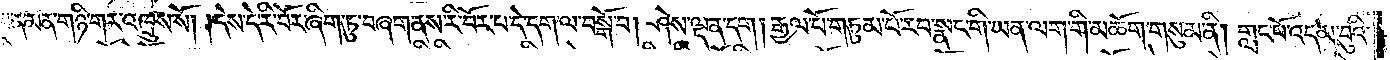ཡན་མན་གཉི་གར་འཁྲུས་སོ། །དེས་དེ་རི་བོར་ཞིག་ཏུ་བཞག་ནས་རི་བོར་པ་དེ་དག་ལ་བསྒོ་བ། ཤེས་ལྡན་དག། རྒྱལ་པོ་གཏུམ་པོར་བྱ་སྣང་གི་ཡན་ལག་གི་མཆོག་གསུམ་ནི། གླང་པོ་འདམ་བུའི་
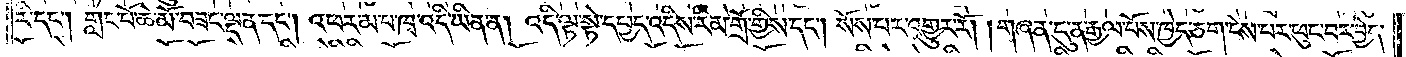རི་དང༌། གླང་པོ་ཆེ་མོ་བཟང་ལྡན་དང༌། འཕར་མ་པ་ཁྭ་འདི་ཡིན་ན། འདི་ལྟ་སྟེ་དཔྱད་འདིས་རིམ་གྲོ་གྱིས་དང༌། སོས་པར་འགྱུར་རོ། །གཞན་དུ་ན་རྒྱལ་པོས་ཁྱེད་ཅག་ངེས་པར་ཕུང་བར་བྱེད་
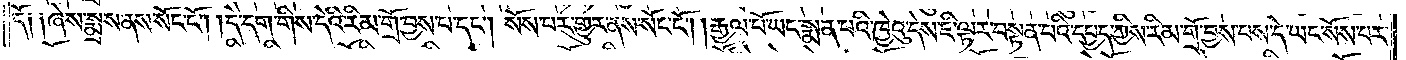དོ༑ ༑ཞེས་སྨྲས་ནས་སོང་ངོ༌། །དེ་དག་གིས་དེའི་རིམ་གྲོ་བྱས་པ་དང༌། སོས་པར་གྱུར་ནས་སོང་ངོ༌། །རྒྱལ་པོ་ཡང་སྨན་པའི་ཁྱེའུ་དེས་ཇི་ལྟར་བསྟན་པའི་དཔྱད་ཀྱིས་རིམ་གྲོ་བྱས་པས་དེ་ཡང་སོས་པར་
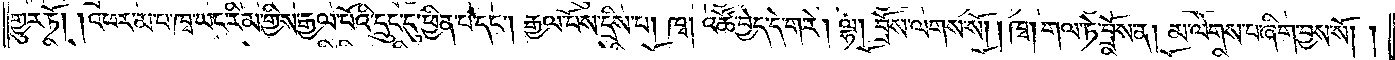གྱུར་ཏོ། །འཕར་མ་པ་ཁྭ་ཡང་རིམ་གྱིས་རྒྱལ་པོའི་དྲུང་དུ་ཕྱིན་པ་དང༌། རྒྱལ་པོས་དྲིས་པ། ཁྭ། འཚོ་བྱེད་དེ་ག་རེ། ལྷ། བྲོས་ལགས་སོ། །ཁྭ། གལ་ཏེ་བྲོས་ན། མ་ལེགས་པ་ཞིག་བྱས་སོ། །
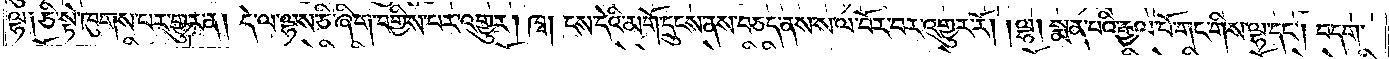ལྷ། ཅི་སྟེ་ཁུགས་པར་གྱུར་ན། དེ་ལ་ལྷས་ཅི་ཞིག་བགྱིས་པར་འགྱུར། ཁྭ། ངས་དེའི་མགོ་དྲུངས་ནས་བཅད་ནས་ས་ལ་བོར་བར་འགྱུར་རོ། །ལྷ། སྨན་པའི་རྒྱལ་པོ་གང་གིས་ལྷ་དང༌། བདག་
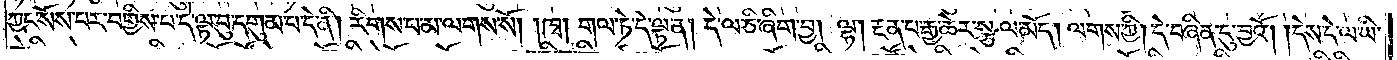ཀྱང་སོས་པར་བགྱིས་པ་དེ་ལྟ་བུ་དགུམ་པ་དེ་ནི། རིགས་པ་མ་ལགས་སོ། །ཁྭ། གལ་ཏེ་དེ་ལྟ་ན། དེ་ལ་ཅི་ཞིག་བྱ། ལྷ། རྔན་པ་རྒྱ་ཆེར་སྩལ་མོད། ལགས་ཀྱི། དེ་བཞིན་དུ་བྱའོ། །དེས་དེ་ལ་ཡི་
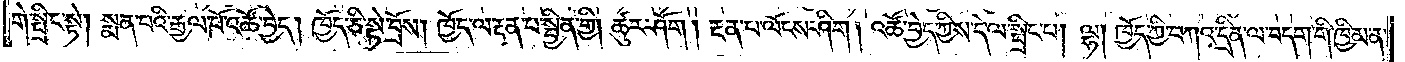གེ་སྤྲིང་སྟེ། སྨན་པའི་རྒྱལ་པོ་འཚོ་བྱེད། ཁྱོད་ཅི་སྟེ་བྲོས། ཁྱོད་ལ་རྔན་པ་སྦྱིན་གྱི། ཚུར་ཤོག། རྔན་པ་ལོངས་ཤིག། འཚོ་བྱེད་ཀྱིས་དེ་ལ་སྤྲིང་པ། ལྷ། ཁྱོད་ཀྱི་བཀའ་དྲིན་ལ་བདག་གི་ཁྱིམ་ན་
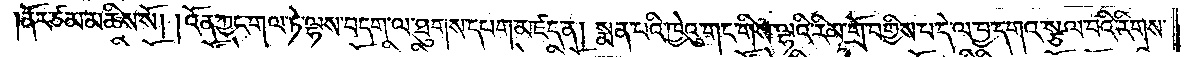ནོར་ཙམ་མཆིས་སོ། །འོན་ཀྱང་གལ་ཏེ་ལྷས་བདག་ལ་ཐུགས་དཔག་མཛད་ན། སྨན་པའི་ཁྱེའུ་གང་གིས་ལྷའི་རིམ་གྲོ་བགྱིས་པ་དེ་ལ་བྱ་དགའ་སྩལ་བའི་རིགས་
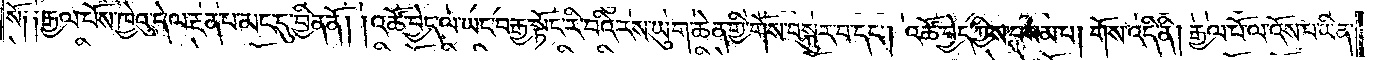སོ༑ ༑རྒྱལ་པོས་ཁྱེའུ་དེ་ལ་རྔན་པ་མང་དུ་བྱིན་ནོ། །འཚོ་བྱེད་ལ་ཡང་བརྒྱ་སྟོང་རི་བའི་རས་ཡུག་ཆེན་གྱི་གོས་བསྐུར་བ་དང༌། འཚོ་བྱེད་ཀྱིས་བསམ་པ། གོས་འདི་ནི། རྒྱལ་པོ་ལ་འོས་པ་ཡིན་
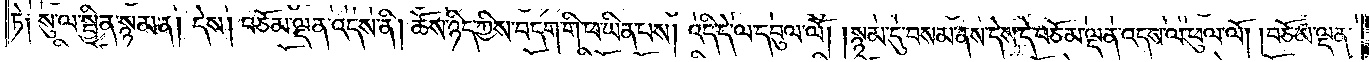ཏེ༑ སུ་ལ་སྦྱིན་སྙམ་ན། དེས། བཅོམ་ལྡན་འདས་ནི། ཆོས་ཉིད་ཀྱིས་བདག་གི་ཕ་ཡིན་པས། འདི་དེ་ལ་དབུལ་ལོ། །སྙམ་དུ་བསམ་ནས་དེས་དེ་བཅོམ་ལྡན་འདས་ལ་ཕུལ་ལོ། །བཅོམ་ལྡན་
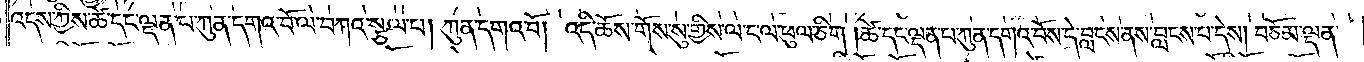འདས་ཀྱིས་ཚེ་དང་ལྡན་པ་ཀུན་དགའ་བོ་ལ་བཀའ་སྩལ་པ། ཀུན་དགའ་བོ། འདི་ཆོས་གོས་སུ་གྱིས་ལ་ང་ལ་ཕུལ་ཅིག །ཚེ་དང་ལྡན་པ་ཀུན་དགའ་བོས་དེ་བླངས་ནས་བླངས་པ་དེས། བཅོམ་ལྡན་
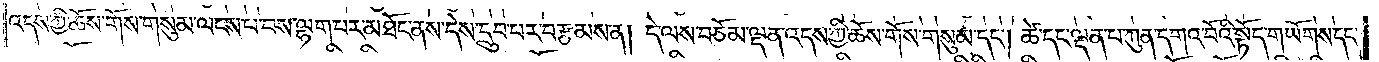འདས་ཀྱི་ཆོས་གོས་གསུམ་ལངས་པ་བས་ལྷག་པར་མཐོང་ནས་དེས་དྲུབ་པར་བརྩམས་ན། དེ་ལས་བཅོམ་ལྡན་འདས་ཀྱི་ཆོས་གོས་གསུམ་དང༌། ཚེ་དང་ལྡན་པ་ཀུན་དགའ་བོའི་སྟོད་གཡོགས་དང་
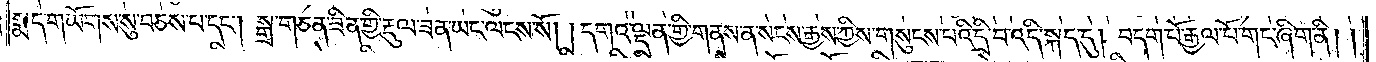སྨད་གཡོགས་སུ་བཅས་པ་དང༌། སྒྲ་གཅན་ཟིན་གྱི་རྡུལ་ཟན་ཡང་ལངས་སོ། །དགའ་ལྡན་གྱི་གནས་ན་སངས་རྒྱས་ཀྱིས་གསུངས་པའི་དྲི་བ་འདི་སྐད་དུ། བདག་པོ་རྒྱལ་པོ་གང་ཞིག་ནི༎
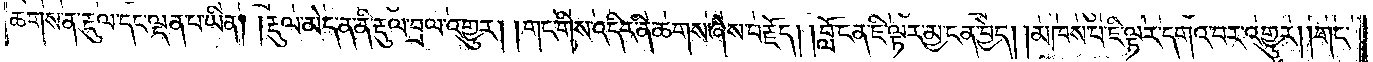ཆགས་ན་རྡུལ་དང་ལྡན་པ་ཡིན། །རྡུལ་མེད་ན་ནི་རྡུལ་བྲལ་འགྱུར། །གང་གིས་འདིར་ནི་ཆགས་ཞེས་བརྗོད། །བློ་ངན་ཇི་ལྟར་མྱ་ངན་བྱེད། །མཁས་པ་ཇི་ལྟར་དགའ་བར་འགྱུར། །གང་
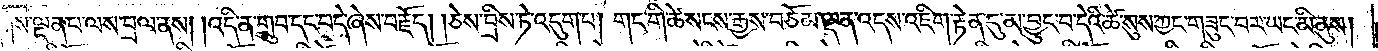གིས་ལྡན་པ་ལས་བྲལ་ནས། །འདི་ན་གྲུབ་དང་བདེ་ཞེས་བརྗོད། །ཅེས་བྲིས་ཏེ་འདུག་པ། གང་གི་ཚེ་སངས་རྒྱས་བཅོམ་ལྡན་འདས་འཇིག་རྟེན་དུ་མ་བྱུང་བ་དེའི་ཚེ་སུས་ཀྱང་གཟུང་བར་ཡང་མི་ནུས།
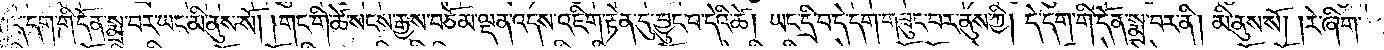དེ་དག་གི་དོན་སྨྲ་བར་ཡང་མི་ནུས་སོ། །གང་གི་ཚེ་སངས་རྒྱས་བཅོམ་ལྡན་འདས་འཇིག་རྟེན་དུ་བྱུང་བ་དེའི་ཚེ། ཡང་དྲི་བ་དེ་དག་གཟུང་བར་ནུས་ཀྱི། དེ་དག་གི་དོན་སྨྲ་བར་ནི། མི་ནུས་སོ། །རེ་ཞིག་
